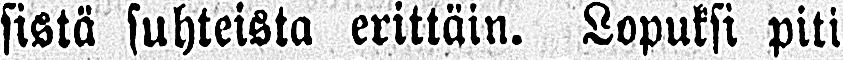sistä suhteista erittäin. Lopuksi piti
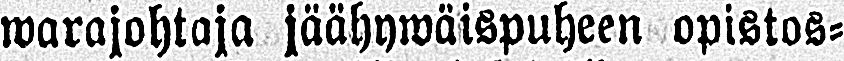warajohtaja jäähywäispuheen opistos-
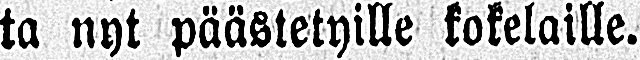ta nyt päästetyille kokelaille.
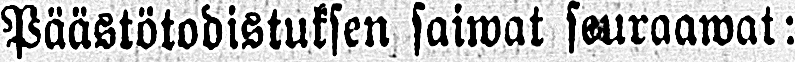Päästötodistuksen saiwat seuraawat:
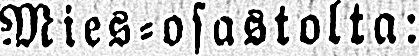Mies-osastolta:
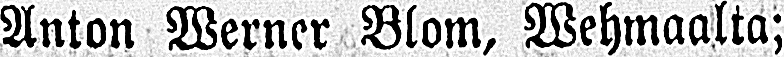Anton Werner Blom, Wehmaalta;
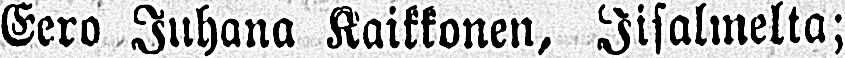Eero Juhana Kaikkonen, Iisalmelta;
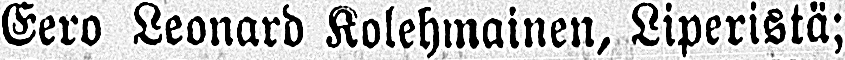Eero Leonard Kolehmainen, Liperistä;
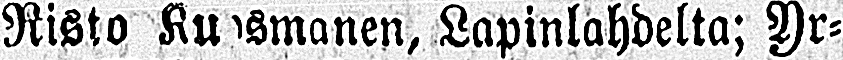Risto Kuosmanen, Lapinlahdelta; Yr-
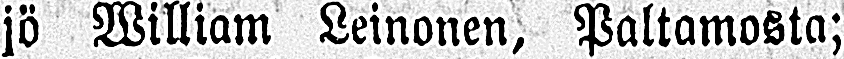jö William Leinonen, Paltamosta;
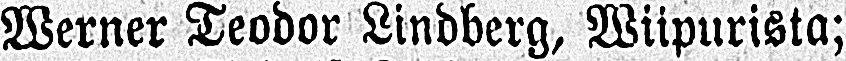Werner Teodor Lindberg, Wiipurista;
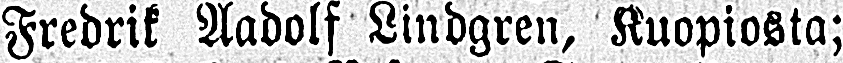Fredrik Aadolf Lindgren, Kuopiosta;
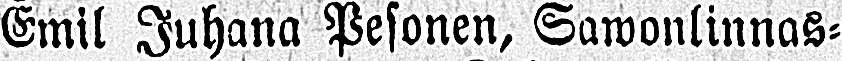Emil Juhana Pesonen, Sawonlinnas-
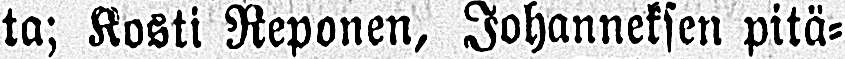ta; Kosti Reponen, Johanneksen pitä-
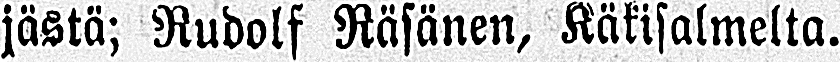jästä; Rudolf Räsänen, Käkisalmelta.
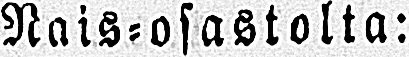Nais-osastolta:
